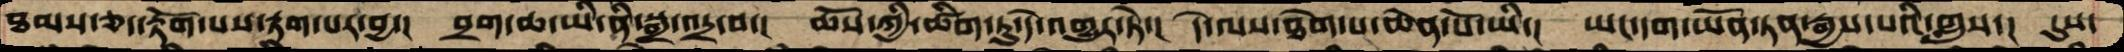ཐམས་ཅད་རྟོག་པས་རྟག་པར་བྱ་།  བྲག་ཆ་ཡི་ནི་སྒྲ་འདྲ་བ་།  ཆོས་ཀྱི་ཚིག་ཏུ་དེ་འགྱུར་ཏེ་།  དེ་ལས་ཐེག་པ་ཆེན་པོ་ཡི་།  ཡང་དག་ཡོན་ཏན་རྒྱས་པའི་གླུས་།  དུས་
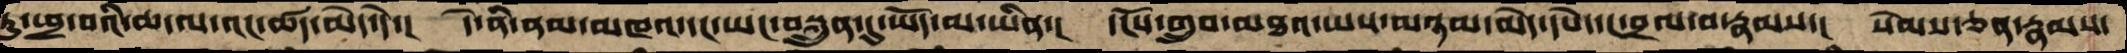ཏུ་ཕྲ་བའི་ཆ་ལ་འང་ཚད་མེད་དེ་།  དེ་ནི་ནམ་མཁའ་དང་ཡང་བསྐྲུན་དུ་ཡོད་མ་ཡིན་།  དངོས་གྲུབ་མཐའ་ཡས་མཉམ་མེད་དཔེ་དང་བྲལ་བ་རྣམས་།  སེམས་ཅན་རྣམས་
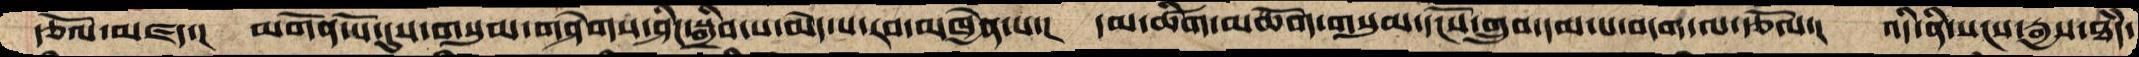རྩོལ་མཛད་།  མགོན་པོ་དུས་གསུམ་གཤེགས་ཤིང་སྒྲིབ་པ་མེད་པ་རབ་མཁྱེན་པ་།  དམ་ཚིག་མཆོག་གསུམ་དངོས་གྲུབ་དམ་པ་བདག་ལ་རྩོལ་།  འདི་ནི་སངས་རྒྱས་ཐཾད་
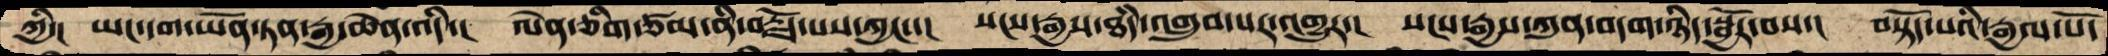ཀྱི་།   ཡང་དག་ཡོན་ཏན་རྒྱ་ཆེན་འདི་།  ལེན་ཅིག་ཙམ་ནི་བརྗོད་པས་ཀྱང་་།  སངས་རྒྱས་ཐཾད་འགྲུབ་པར་འགྱུར་།  སངས་རྒྱས་ཀུན་བདག་ཉིད་སྦྱོར་བས་།  བསྟོད་པའི་རྒྱལ་པོ་
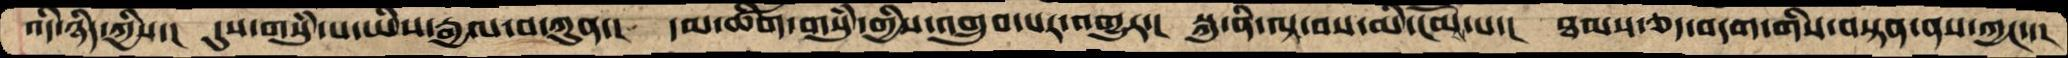འདི་ཉིད་ཀྱིས་།  དུས་གསུཾ་པ་ཡིས་རྒྱལ་བ་ཀུན་།  དམ་ཚིག་གསུཾ་གྱིས་འགྲུབ་པར་འགྱུར་།  སྐུ་ནི་ལྟ་བས་མི་ངོམ་པ་།  ཐམས་ཅད་བདག་གིས་བསྟན་ནས་ཀྱང་་།
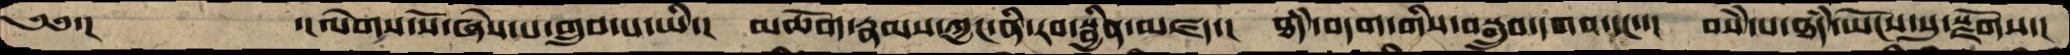༄༅་།            ་།ལེགས་སོ་ཞེས་པ་གྲུབ་པ་ཡི་།   མཆོག་རྣམས་ཀྱང་ནི་རབ་སྦྱིན་མཛད་།   ཐཾད་བདག་གིས་བསྒྲུབ་དགའ་དང་་།   བསཾ་པ་ཐཾད་ཡོངས་སུ་སྫོགས་།
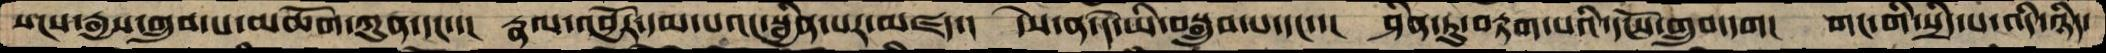སངས་རྒྱས་གྲུབ་པ་མཆོག་ཀུན་དང་་།   རྣལ་འབྱོར་དམ་པའང་སྦྱིན་པར་མཛད་།  དེས་ན་དེ་ཡི་བསྒྲུབ་པ་དང་་།  ཤིན་ཏུ་བརྟག་པའི་དངོས་གྲུབ་དག།  གང་གི་སྲིད་པ་འདི་ཉིད་
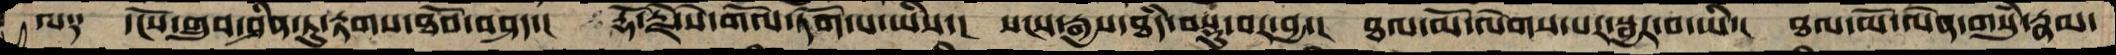ལ༑   དངོས་གྲུབ་ཤིན་ཏུ་རྟགས་ཐོབ་བཤད་།  རྡོ་རྗེ་སེ་གོལ་ཏོག་པ་ཡིས་།   སངས་རྒྱས་ཐཾད་བསྡུ་བར་བྱ་།  ཐལ་མོ་ལེགས་པར་སྦྱར་བ་ཡི་།  ཐལ་མོ་ལེན་གསུཾ་རྣམ་
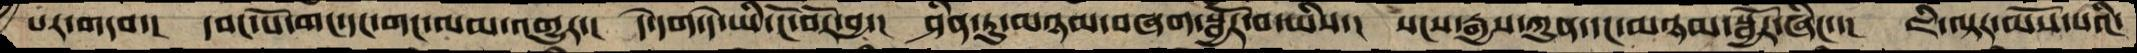པར་གདབ་།   དབང་པོ་གང་དང་གང་ལམ་འགྱུར་།   དེ་དག་དེ་ཡི་ངོ་བོར་བྱ་།  ཤིན་ཏུ་མཉམ་བཞག་སྦྱོར་བ་ཡིས་།  སངས་རྒྱས་ཀུན་དང་མཉམ་སྦྱོར་ཞིང་་།  ཇི་ལྟར་མོས་པའི་
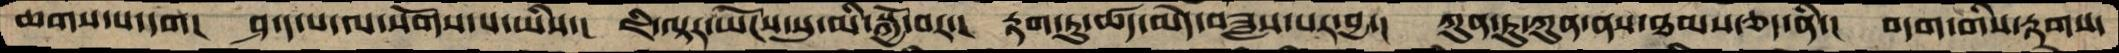ཆགས་པ་དག།   ཤ་ད་པ་ལ་སོགས་པ་ཡིས་།   ཇི་ལྟར་ཡོངས་སུ་མི་སྐྱོ་བར་།  རྟག་ཏུ་ཚད་མེད་བཟླས་པར་བྱ་།  ཀུན་ཏུ་ཀུན་ནས་ཐམས་ཅད་ནི་།  བདག་གིས་རྟགས་
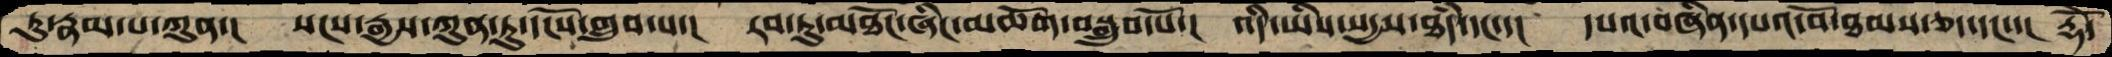ཏུ་རྣམ་པ་ཀུན་།   སངས་རྒྱས་ཀུན་ཏུ་དངོས་གྲུབ་པ་།  རབ་ཏུ་མཐོང་ཞིང་མཆོག་བསྒྲུབ་པོ་།  འདི་ཡིས་སདྱས་ཐཾད་དང་་།  དཔའ་བཞིན་དཔའ་བོ་ཐམས་ཅད་དང་་།  རྡོེ་
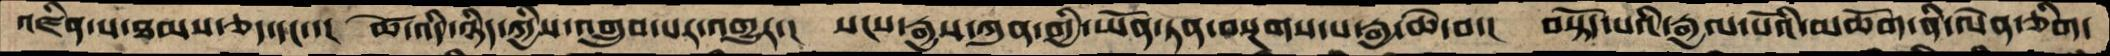འཛིན་པ་ཐམས་ཅད་དང་་།   ཚེ་འདི་ཉིད་ཀྱིས་འགྲུབ་པར་འགྱུར་།  སངས་རྒྱས་ཀུན་གྱི་ཡོན་ཏན་བསྔགས་པ་རྒྱ་ཆེ་བ་།  བསྟོད་པའི་རྒྱལ་པོའི་མཆོག་ནི་ལེན་ཅིག་
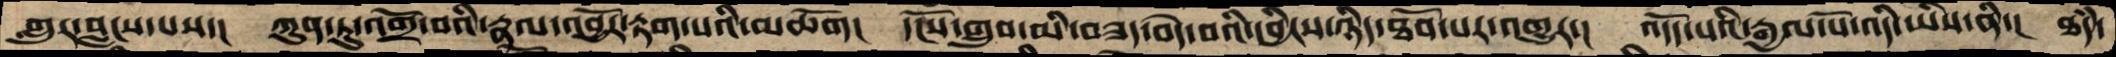གླུར་བླངས་པས་།  ཀུན་ཏུ་འགྲོ་བའི་རྣལ་འབྱོར་རྟག་པའི་མཆོག།  དངོས་གྲུབ་མི་བཟད་བདེ་བའི་དབྱིངས་ཉིད་ཐོབ་པར་འགྱུར་།  འདོད་པའི་རྒྱལ་པོ་འདི་ཡིས་ནི་།  ཐཾད་
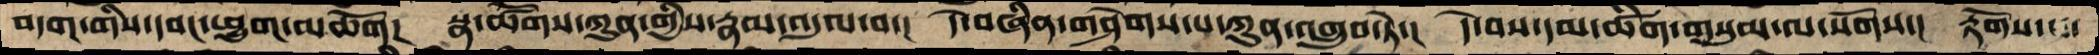བདག་གིས་དབང་ཕྱུག་མཆོག།   སྣ་ཚོགས་ཀུན་གྱིས་རྣམ་འདུལ་བ་།  དེ་བཞིན་གཤེགས་པ་ཀུན་འགྲུབ་ཏེ་།   དེ་བས་དམ་ཚིག་གསུམ་ལ་སོགས་།  རྟོགས་
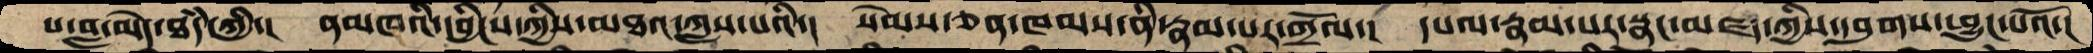པ་བླ་མེད་ཐཾད་ཀྱི་།   ནམཁའི་དབྱིངས་ཀྱིས་མཐའ་ཀླས་པའི་།  སེམས་ཅན་ཁམས་ནི་རྣམ་པར་གྲོལ་།  དཔལ་རྣམ་པར་སྣང་མཛད་ཀྱིས་དབུགས་ཕྱུང་པའོ་།
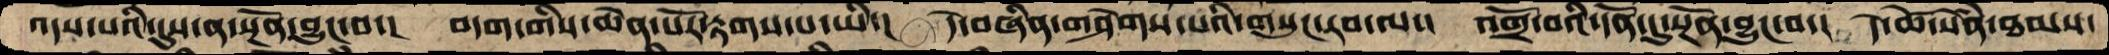འདས་པའི་དུས་ན་སྔོན་བྱུང་བ་།  བདག་གིས་ཆེན་པོར་རྟགས་པ་ཡི་།  དེ་བཞིན་གཤེགས་པའི་གསུང་རབ་ལ་།  འགྲོ་བའི་དོན་དུ་སྔོན་བྱུང་བ་།  དེ་ཚེ་སེཾན་ཐམས་
